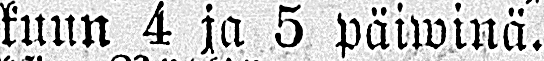kuun 4 ja 5 päiwinä.
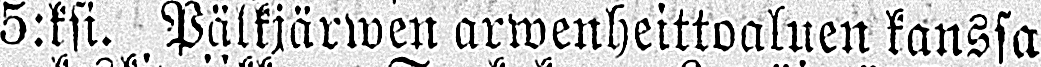5:ksi. Pälkjärwen arwenheittoaluen kanssa
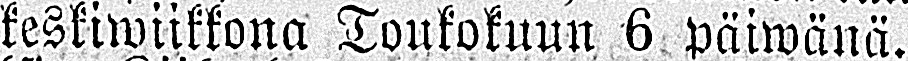keskiwiikkona Toukokuun 6 päiwänä.
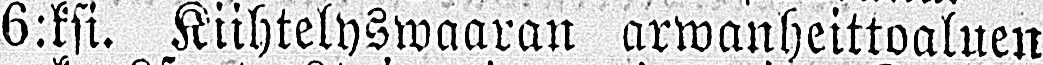6:ksi. Kiihtelyswaaran arwanheittoaluen
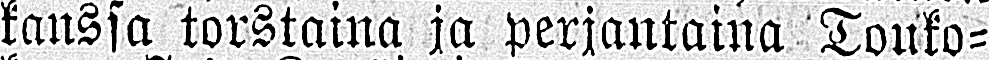kanssa torstaina ja perjantaina Touko-
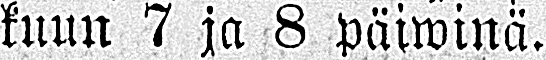kuun 7 ja 8 päiwinä.
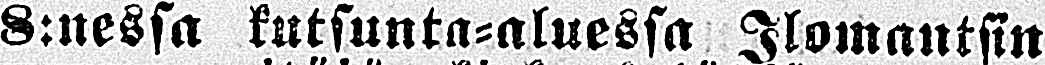8:nessa kutsunta-aluessa Ilomantsin
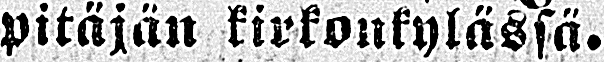pitäjän kirkonkylässä.
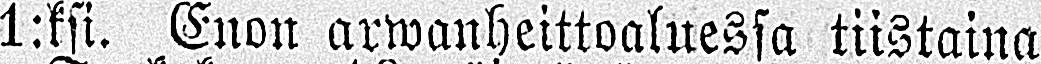1:ksi. Enon arwanheittoaluessa tiistaina
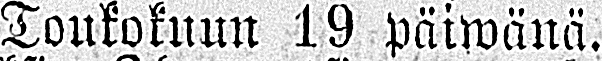Toukokuun 19 päiwänä.
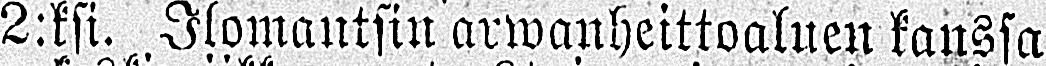2:ksi. Ilomantsin arwanheittoaluen kanssa
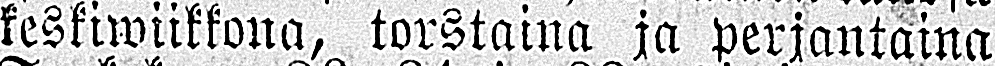keskiwiikkona, torstaina ja perjantaina
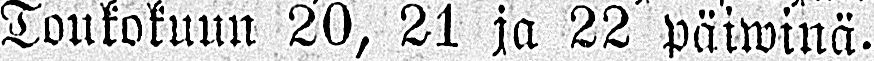Toukokuun 20, 21 ja 22 päiwinä.
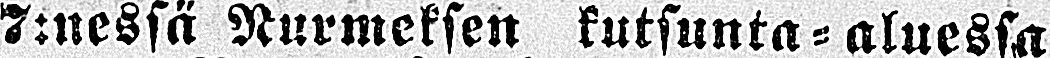7:nessä Nurmeksen kutsunta- aluessa
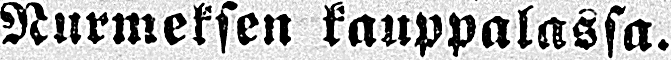Nurmeksen kauppalassa.
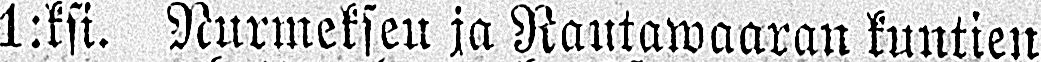1:ksi. Nurmekseu ja Rautawaaran kuntien
